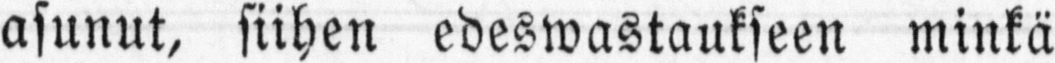asunut, siihen edeswastaukseen minkä
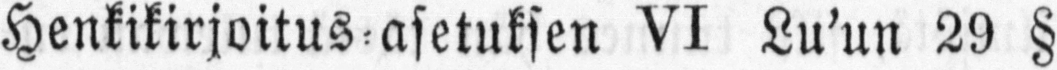Henkikirjoitus asetuksen VI Lu'un 29 §
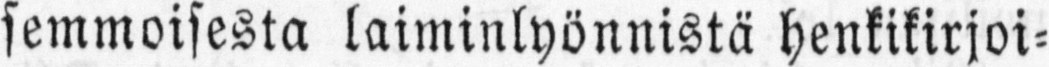semmoisesta laiminlyönnistä henkikirjoi-
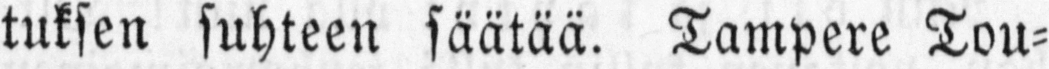tuksen suhteen säätää. Tampere Tou-
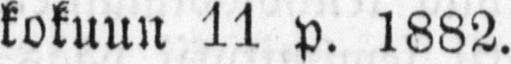kokuun 11 p. 1882.
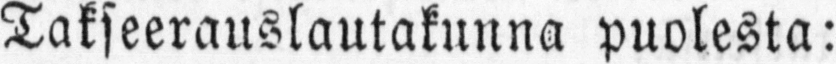Takseerauslautakunna puolesta:
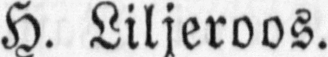H. Liljeroos.
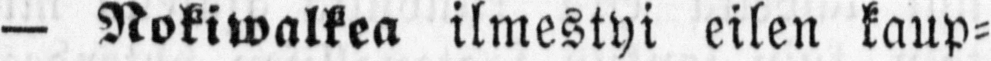— Nokiwalkea ilmestyi eilen kaup-
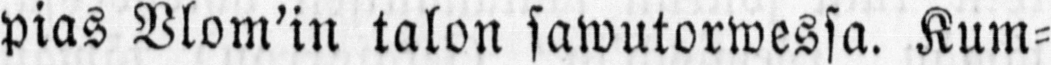pias Vlom'in talon sawutorwessa. Kum-
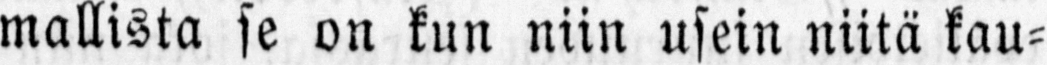mallista se on kun niin usein niitä kau-
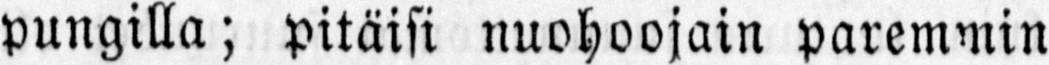pungilla; pitäisi nuohoojain paremmin
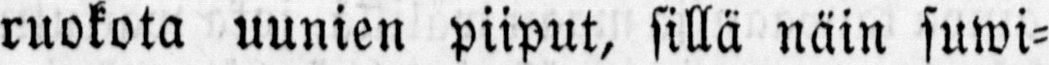ruokota uunien piiput, sillä näin suwi-
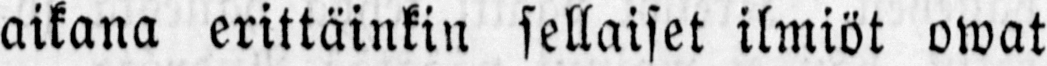aikana erittäinkin sellaiset ilmiöt owat
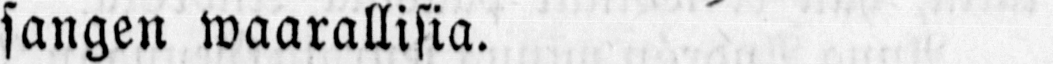sangen waarallisia.
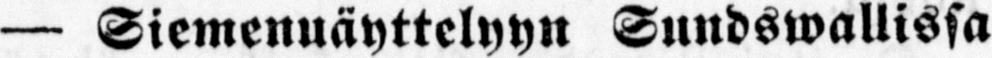— Siemenuäyttelyyn Sundswallissa
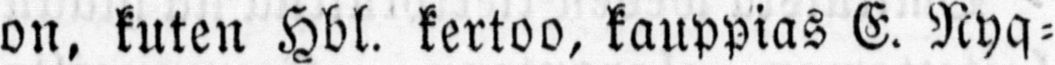on, kuten Hbl. kertoo, kauppias E. Nyq-
